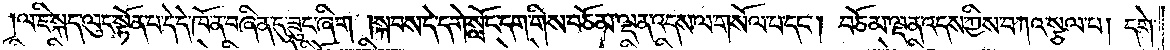ལ་ཇི་སྐད་ལུང་སྟོན་པ་དེ་དེ་ཁོ་ན་བཞིན་དུ་ཟུང་ཞིག །སྐབས་དེ་དགེ་སློང་དག་གིས་བཅོམ་ལྡན་འདས་ལ་གསོལ་པ་དང༌། བཅོམ་ལྡན་འདས་ཀྱིས་བཀའ་སྩལ་པ། དགེ་
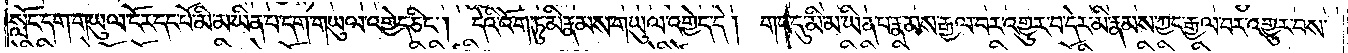སློང་དག་གཡུལ་ངོར་དང་པོ་མི་མ་ཡིན་པ་དག་གཡུལ་འགྱེད་ཅིང༌། དེའི་འོག་ཏུ་མི་རྣམས་གཡུལ་འགྱེད་དེ། གང་དུ་མི་མ་ཡིན་པ་རྣམས་རྒྱལ་བར་འགྱུར་བ་དེར་མི་རྣམས་ཀྱང་རྒྱལ་བར་འགྱུར་བས་
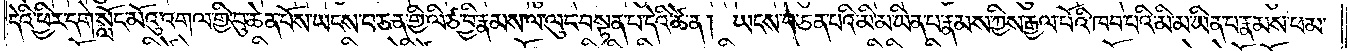དེའི་ཕྱིར་དགེ་སློང་མོའུ་འགལ་གྱི་བུ་ཆེན་པོས་ཡངས་པ་ཅན་གྱི་ལི་ཙ་བྱི་རྣམས་ལ་ལུང་བསྟན་པ་དེའི་ཚེ་ན། ཡངས་པ་ཅན་པའི་མི་མ་ཡིན་པ་རྣམས་ཀྱིས་རྒྱལ་པོའི་ཁབ་པའི་མི་མ་ཡིན་པ་རྣམས་ཕམ་
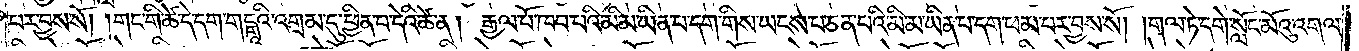པར་བྱས་སོ། །གང་གི་ཚེ་དེ་དག་གངྒཱའི་འགྲམ་དུ་ཕྱིན་པ་དེའི་ཚེ་ན། རྒྱལ་པོ་ཁབ་པའི་མི་མ་ཡིན་པ་དག་གིས་ཡངས་པ་ཅན་པའི་མི་མ་ཡིན་པ་དག་ཕམ་པར་བྱས་སོ། །གལ་ཏེ་དགེ་སློང་མོའུ་འགལ་
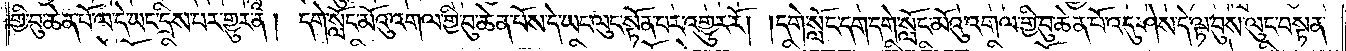གྱི་བུ་ཆེན་པོ་ལ་དེ་ཡང་དྲིས་པར་གྱུར་ན། དགེ་སློང་མོའུ་འགལ་གྱི་བུ་ཆེན་པོས་དེ་ཡང་ལུང་སྟོན་པར་འགྱུར་རོ། །དགེ་སློང་དག་དགེ་སློང་མོའུ་འགལ་གྱི་བུ་ཆེན་པོ་འདུ་ཤེས་དེ་ལྟ་བུས་ལུང་བསྟན་
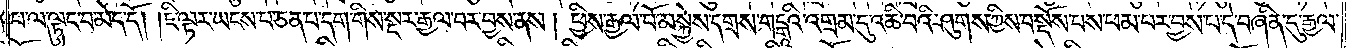པ་ལ་ལྟུང་བ་མེད་དོ། །ཇི་ལྟར་ཡངས་པ་ཅན་པ་དག་གིས་སྔར་རྒྱལ་བར་བྱས་ནས། ཕྱིས་རྒྱལ་པོ་མ་སྐྱེས་དགྲས་གངྒཱའི་འགྲམ་དུ་འཆི་བའི་ཤུགས་ཀྱིས་བསྡོས་པས་ཕམ་པར་བྱས་པ་དེ་བཞིན་དུ་རྒྱལ་
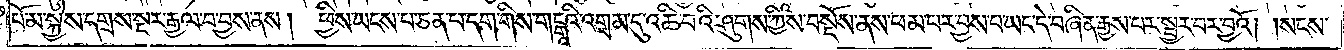པོ་མ་སྐྱེས་དགྲས་སྔར་རྒྱལ་བ་བྱས་ནས།   ཕྱིས་ཡངས་པ་ཅན་པ་དག་གིས་གངྒཱའི་འགྲམ་དུ་འཆི་བའི་ཤུགས་ཀྱིས་བསྡོས་ནས་ཕམ་པར་བྱས་པ་ཡང་དེ་བཞིན་རྒྱས་པར་སྦྱར་བར་བྱའོ། །སངས་
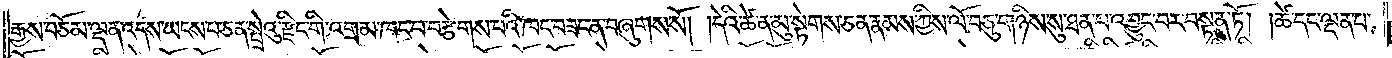རྒྱས་བཅོམ་ལྡན་འདས་ཡངས་པ་ཅན་སྤྲེའུ་རྫིང་གི་འགྲམ་ཁང་པ་བརྩེགས་པའི་ཁང་བཟང་ན་བཞུགས་སོ། །དེའི་ཚེ་ན་མུ་སྟེགས་ཅན་རྣམས་ཀྱིས་ལོ་བཅུ་གཉིས་སུ་ཐན་པ་འབྱུང་བར་བསྟན་ཏོ། །ཚེ་དང་ལྡན་པ་
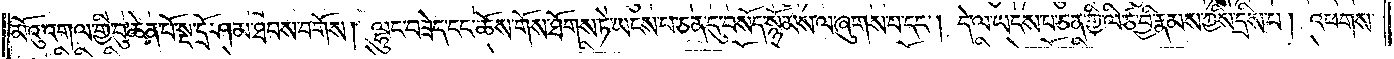མོའུ་འགལ་གྱི་བུ་ཆེན་པོ་སྔ་དྲོ་ཤམ་ཐབས་བགོས། ལྷུང་བཟེད་དང་ཆོས་གོས་ཐོགས་ཏེ་ཡངས་པ་ཅན་དུ་བསོད་སྙོམས་ལ་ཞུགས་པ་དང༌། དེ་ལ་ཡངས་པ་ཅན་གྱི་ལི་ཙ་བྱི་རྣམས་ཀྱིས་དྲིས་པ། འཕགས་
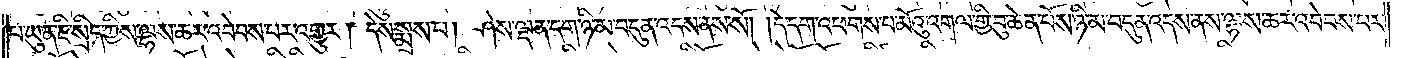པ་ཡུན་ཇི་སྲིད་ཀྱིས་ལྷས་ཆར་འབེབས་པར་འགྱུར། དེས་སྨྲས་པ། ཤེས་ལྡན་དག་ཉི་མ་བདུན་འདས་ནས་སོ། །དེ་དག་འཕགས་པ་མོའུ་འགལ་གྱི་བུ་ཆེན་པོས་ཉི་མ་བདུན་འདས་ནས་ལྷས་ཆར་འབེབས་པར་
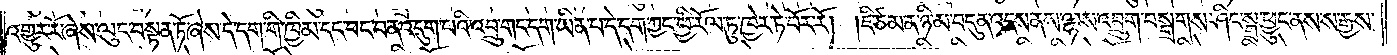འགྱུར་རོ་ཞེས་ལུང་བསྟན་ཏོ་ཞེས་དེ་དག་གི་ཁྱིམ་དང་བང་བ་ན་འདུག་པའི་འབྲུ་གང་དག་ཡིན་པ་དེ་དག་ཀྱང་ཕྱི་རོལ་ཏུ་ཁྱེར་ཏེ་བོར་རོ། །ཇི་ཙམ་ན་ཉི་མ་བདུན་འདས་ནས་ལྷས་འབྲུག་བསྒྲགས་ཤིང་སྒྲ་ཕྱུང་ནས་ས་རྒྱས་
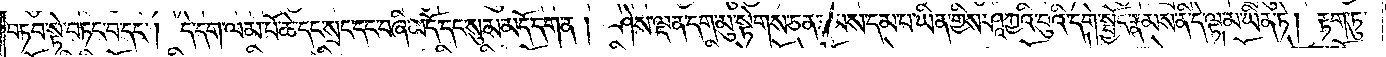བཏབ་སྟེ་བཏང་བ་དང༌། དེ་དག་ལམ་པོ་ཆེ་དང་སྲང་དང་བཞི་མདོ་དང་སུམ་མདོ་དག་ན། ཤེས་ལྡན་དག་མུ་སྟེགས་ཅན་རྣམས་དམ་པ་ཡིན་གྱིས་ཤཱཀྱའི་བུའི་དགེ་སྦྱོང་རྣམས་ནི་དེ་ལྟ་མ་ཡིན་ཏེ། རྟག་ཏུ་
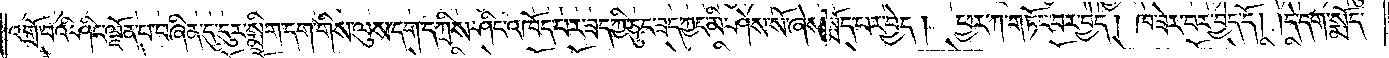འགྲོ་བའི་ཤིང་ལྗོན་པ་བཞིན་དུ་ངུར་སྨྲིག་དག་གིས་ལུས་དག་དཀྲིས་ཤིང་འཁོད་པར་ཟད་ཀྱི་ཅུང་ཟད་ཀྱང་མི་ཤེས་སོ་ཞེས་སྨོད་པར་བྱེད། ཕྱར་ཀ་གཏོང་བར་བྱེད། ཁ་ཟེར་བར་བྱེད་དོ། །དེ་དག་སྨོད་
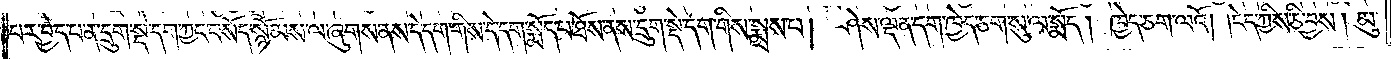པར་བྱེད་པ་ན་དྲུག་སྡེ་དག་ཀྱང་བསོད་སྙོམས་ལ་ཞུགས་ནས་དེ་དག་གིས་དེ་དག་སྨོད་པ་ཐོས་ནས་དྲུག་སྡེ་དག་གིས་སྨྲས་པ། ཤེས་ལྡན་དག་ཁྱེད་ཅག་སུ་ལ་སྨོད། ཁྱེད་ཅག་ལའོ། །ངེད་ཀྱིས་ཅི་བྱས། མུ་
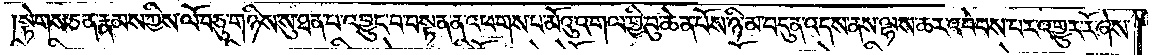།སྟེགས་ཅན་རྣམས་ཀྱིས་ལོ་བཅུ་གཉིས་སུ་ཐན་པ་འབྱུང་བ་བསྟན་ན་འཕགས་པ་མོའུ་འགལ་གྱི་བུ་ཆེན་པོས་ཉི་མ་བདུན་འདས་ནས་ལྷས་ཆར་འབེབས་པར་འགྱུར་རོ་ཞེས་
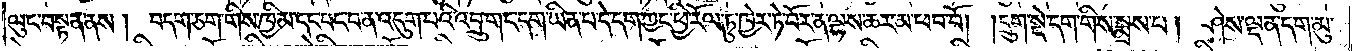ལུང་བསྟན་ནས། བདག་ཅག་གིས་ཁྱིམ་དང་པང་བ་ན་འདུག་པའི་འབྲུ་གང་དག་ཡིན་པ་དེ་དག་ཀྱང་ཕྱི་རོལ་ཏུ་ཁྱེར་ཏེ་བོར་ན་ལྷས་ཆར་མ་ཕབ་བོ། །དྲུག་སྡེ་དག་གིས་སྨྲས་པ། ཤེས་ལྡན་དག་མུ་
